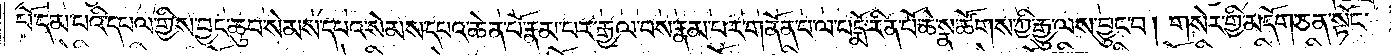པོ་དམ་པའི་དཔལ་གྱིས་བྱང་ཆུབ་སེམས་དཔའ་སེམས་དཔའ་ཆེན་པོ་རྣམ་པར་རྒྱལ་བས་རྣམ་པར་གནོན་པ་ལ་པདྨོ་རིན་པོ་ཆེ་སྣ་ཚོགས་ཀྱི་རྒྱུ་ལས་བྱུང་བ། གསེར་གྱི་མདོག་ཅན་སྟོང་
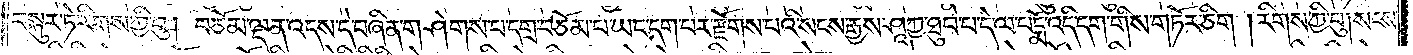བསྐུར་ཏེ་རིགས་ཀྱི་བུ། བཅོམ་ལྡན་འདས་དེ་བཞིན་གཤེགས་པ་དགྲ་བཅོམ་པ་ཡང་དག་པར་རྫོགས་པའི་སངས་རྒྱས་ཤཱཀྱ་ཐུབ་པ་དེ་ལ་པདྨོ་འདི་དག་གིས་གཏོར་ཅིག །རིགས་ཀྱི་བུ། སངས་
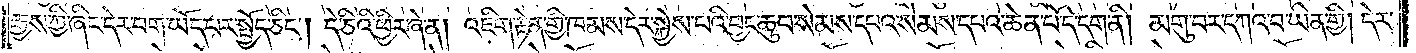རྒྱས་ཀྱི་ཞིང་དེར་བག་ཡོད་པར་སྤྱོད་ཅིང༌། དེ་ཅིའི་ཕྱིར་ཞེ་ན། འཇིག་རྟེན་གྱི་ཁམས་དེར་སྐྱེས་པའི་བྱང་ཆུབ་སེམས་དཔའ་སེམས་དཔའ་ཆེན་པོ་དེ་དག་ནི། མགུ་བར་དཀའ་བ་ཡིན་གྱི། དེར་
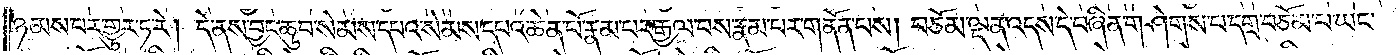ཉམས་པར་གྱུར་ཏ་རེ། དེ་ནས་བྱང་ཆུབ་སེམས་དཔའ་སེམས་དཔའ་ཆེན་པོ་རྣམ་པར་རྒྱལ་བས་རྣམ་པར་གནོན་པས། བཅོམ་ལྡན་འདས་དེ་བཞིན་གཤེགས་པ་དགྲ་བཅོམ་པ་ཡང་
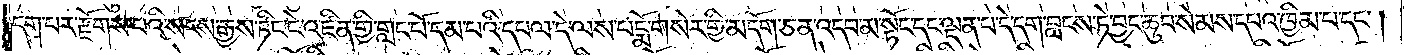དག་པར་རྫོགས་པའི་སངས་རྒྱས་ཏིང་ངེ་འཛིན་གྱི་གླང་པོ་དམ་པའི་དཔལ་དེ་ལས་པདྨོ་གསེར་གྱི་མདོག་ཅན་འདབ་མ་སྟོང་དང་ལྡན་པ་དེ་དག་བླངས་ཏེ་བྱང་ཆུབ་སེམས་དཔའ་ཁྱིམ་པ་དང༌།
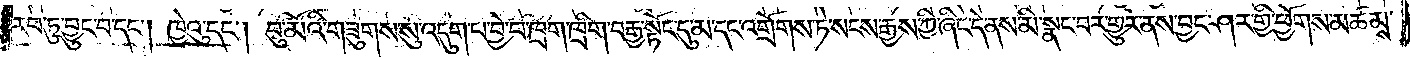རབ་ཏུ་བྱུང་བ་དང༌། ཁྱེའུ་དང༌། བུ་མོའི་གཟུགས་སུ་འདུག་པ་བྱེ་བ་ཁྲག་ཁྲིག་བརྒྱ་སྟོང་དུ་མ་དང་འགྲོགས་ཏེ་སངས་རྒྱས་ཀྱི་ཞིང་དེ་ནས་མི་སྣང་བར་གྱུར་ནས་བྱང་ཤར་གྱི་ཕྱོགས་མཚམས་
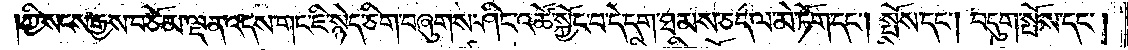ཀྱི་སངས་རྒྱས་བཅོམ་ལྡན་འདས་གང་ཇི་སྙེད་ཅིག་བཞུགས་ཤིང་འཚོ་སྐྱོང་བ་དེ་དག་ཐམས་ཅད་ལ་མེ་ཏོག་དང༌། སྤོས་དང༌། བདུག་སྤོས་དང༌།
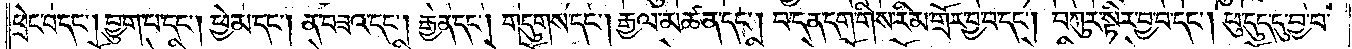ཕྲེང་བ་དང༌། བྱུག་པ་དང༌། ཕྱེ་མ་དང༌། ན་བཟའ་དང༌། རྒྱན་དང༌། གདུགས་དང༌། རྒྱལ་མཚན་དང༌། བ་དན་དག་གིས་རིམ་གྲོར་བྱ་བ་དང༌། བཀུར་སྟིར་བྱ་བ་དང༌། ཕུ་དུད་དུ་བྱ་བ་
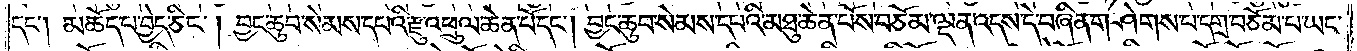དང༌། མཆོད་པ་བྱེད་ཅིང༌། བྱང་ཆུབ་སེམས་དཔའི་རྫུ་འཕྲུལ་ཆེན་པོ་དང༌། བྱང་ཆུབ་སེམས་དཔའི་མཐུ་ཆེན་པོས་བཅོམ་ལྡན་འདས་དེ་བཞིན་གཤེགས་པ་དགྲ་བཅོམ་པ་ཡང་
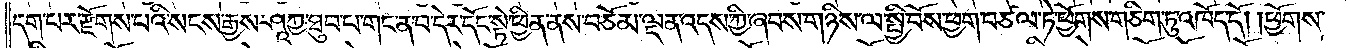དག་པར་རྫོགས་པའི་སངས་རྒྱས་ཤཱཀྱ་ཐུབ་པ་གང་ན་བ་དེར་དོང་སྟེ་ཕྱིན་ནས་བཅོམ་ལྡན་འདས་ཀྱི་ཞབས་གཉིས་ལ་སྤྱི་བོས་ཕྱག་བཙལ་ཏེ་ཕྱོགས་གཅིག་ཏུ་འཁོད་དོ། །ཕྱོགས་
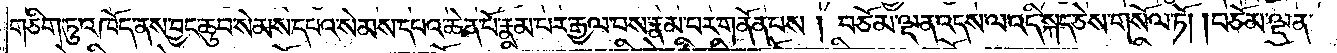གཅིག་ཏུ་འཁོད་ནས་བྱང་ཆུབ་སེམས་དཔའ་སེམས་དཔའ་ཆེན་པོ་རྣམ་པར་རྒྱལ་བས་རྣམ་པར་གནོན་པས། བཅོམ་ལྡན་འདས་ལ་འདི་སྐད་ཅེས་གསོལ་ཏོ། །བཅོམ་ལྡན་
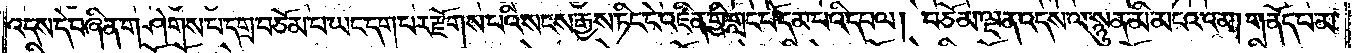འདས་དེ་བཞིན་གཤེགས་པ་དགྲ་བཅོམ་པ་ཡང་དག་པར་རྫོགས་པའི་སངས་རྒྱས་ཏིང་ངེ་འཛིན་གྱི་གླང་པོ་དམ་པའི་དཔལ། བཅོམ་ལྡན་འདས་ལ་སྙུན་མི་མངའ་འམ། གནོད་པ་མ་
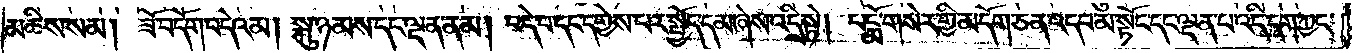མཆིས་སམ། ཟོ་བདོག་བདེའམ། སྐུ་ཉམས་དང་ལྡན་ནམ། བདེ་བ་དང་དགྱེས་པར་སྤྱོད་དམ་ཞེས་འདྲི་སྟེ། པདྨོ་གསེར་གྱི་མདོག་ཅན་འདབ་མ་སྟོང་དང་ལྡན་པ་འདི་དག་ཀྱང་
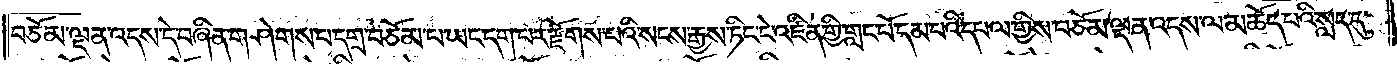བཅོམ་ལྡན་འདས་དེ་བཞིན་གཤེགས་པ་དགྲ་བཅོམ་པ་ཡང་དག་པར་རྫོགས་པའི་སངས་རྒྱས་ཏིང་ངེ་འཛིན་གྱི་གླང་པོ་དམ་པའི་དཔལ་གྱིས་བཅོམ་ལྡན་འདས་ལ་མཆོད་པའི་སླད་དུ་
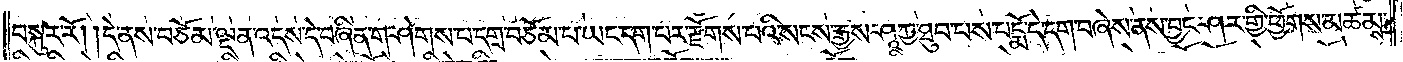བསྐུར་རོ། །དེ་ནས་བཅོམ་ལྡན་འདས་དེ་བཞིན་གཤེགས་པ་དགྲ་བཅོམ་པ་ཡང་དག་པར་རྫོགས་པའི་སངས་རྒྱས་ཤཱཀྱ་ཐུབ་པས་པདྨོ་དེ་དག་བཞེས་ནས་བྱང་ཤར་གྱི་ཕྱོགས་མཚམས་
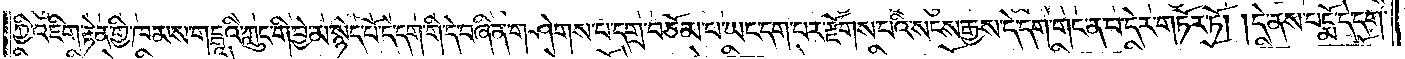ཀྱི་འཇིག་རྟེན་གྱི་ཁམས་གངྒཱའི་ཀླུང་གི་བྱེ་མ་སྙེད་པོ་དེ་དག་གི་དེ་བཞིན་གཤེགས་པ་དགྲ་བཅོམ་པ་ཡང་དག་པར་རྫོགས་པའི་སངས་རྒྱས་དེ་དག་གང་ན་བ་དེར་གཏོར་ཏོ། །དེ་ནས་པདྨོ་དེ་དག་
